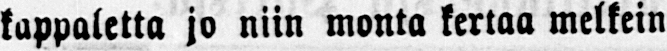kappaletta jo niin monta kertaa melkein
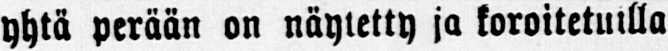yhtä perään on näytetty ja koroitetuilla
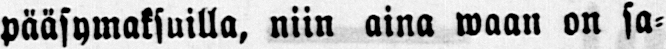pääsymaksuilla, niin aina waan on sa-
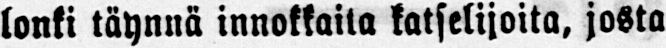lonki täynnä innokkaita katselijoita, josta
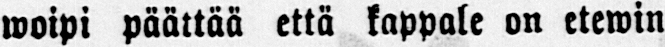woipi päättää että kappale on etewin
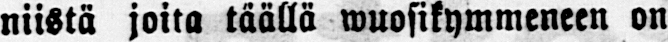niistä joita täällä wuosikymmeneen on
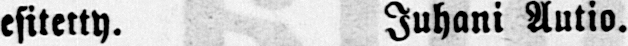esitetty. Juhani Autio.
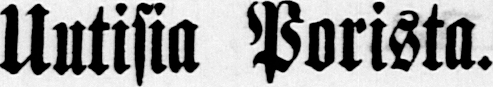Uutisia Porista.
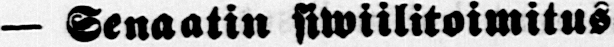— Senaatin siwiilitoimitus-
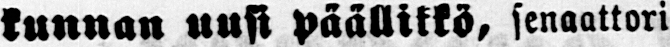kunnan uust päällikkö, senaattori
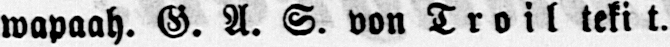wapaah. G. A. S. von Troil teki t.
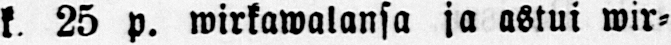k. 25 p. wirkawalansa ja astui wir-
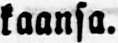kaansa.
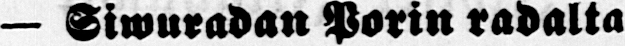— Siwuradan Porin radalta
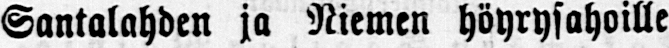Santalahden ja Niemen höyrysahoille
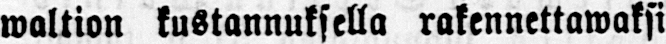waltion kustannuksella rakennettawaksi
